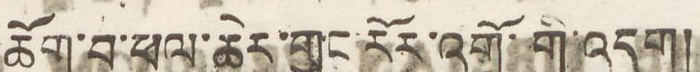ཆོག་བ་ཕལ་ཆེར་གྱང་རོར་འགྲོ་གི་འདུག།
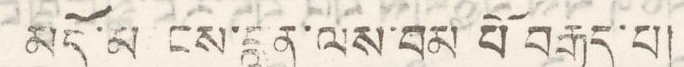མདོ་མ ངས་བླུན་ལ་བམ པོ བརྒྱད་པ།
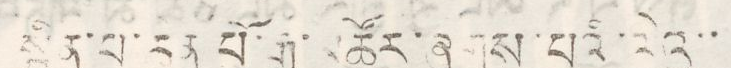སྦྱིན་པ་རན པོ་རྒྱ་མཚོར་ཞུགས་པའི་ལེའུ་་
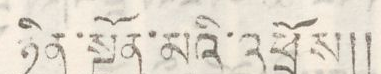ཉིན་སྔོན་མའི་འཕྲོས།།
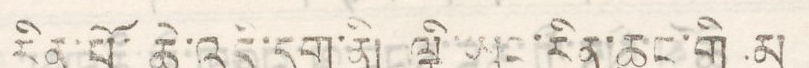རིན་པོ་ཆེ་འདི་དག་ནི། ལྕི་ཡང་རིན་ཆུང་གི མ
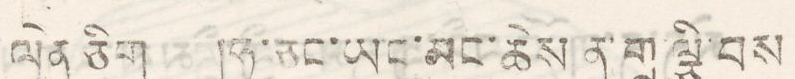ལེན ཅིག །ཧ་ཅང་ཡང་མང་ཆེས ན་གྲུ་ལྕི་བས
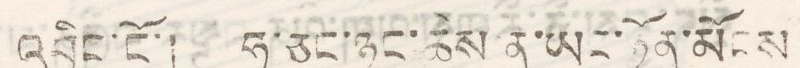འབྱིང་ངོ་། ཧ་ཅང་ཉུང་ཆེས་ན་ཡང་ཉོན་མོངས
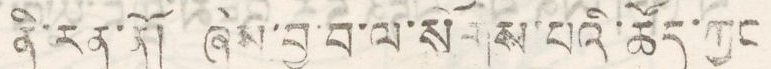ནི་རན་ནོ། ཆེས་བྱ་བ་ལ་སོགས་པའི་ཚོད་ཀྱང
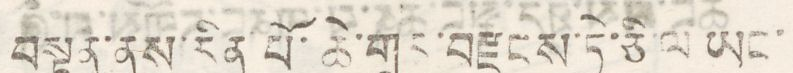བསྟན་ནས་རིན་པོ་ཆེ་གྲུང་བརྫངས་ཏེ་ཅི་ལ ཡང་
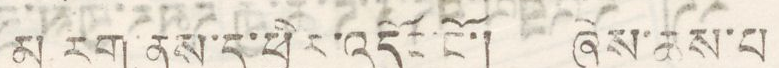མ རག ནས་ད་ཕྱིར་འདོང་ངོ་། ཞེས་ཆས་པ
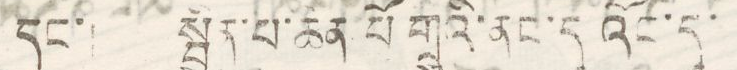དང་། སྦྱིན་པ་ཆན་པོ གྲུའི་ནང་དུ འོང་དུ་
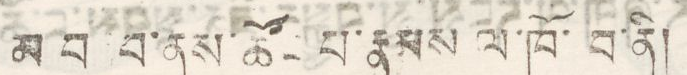མ བཏུབ་ནས་ཚོང་པ་རྣམས ལ་ཁོ་བ་ནི།
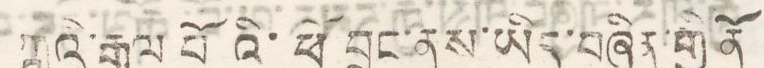ཀླུའི་རྒྱལ པོའི་ཕོ་བྲང་ནས་ཡིད་བཞིན་གྱི ནོ
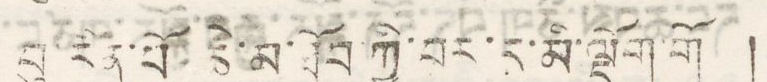བུ་རིན་པོ་ཆེ་མ་ཐོབ་ཀྱི་བར་དུ་མི་ལྡིག་གི །
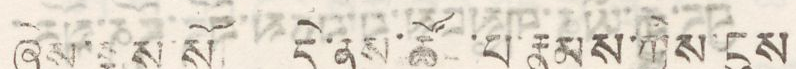ཞེས་སྨྲས་སོ། དེ་ནས་ཚོང་པ་རྣམས་ཀྱིས་ངུས་
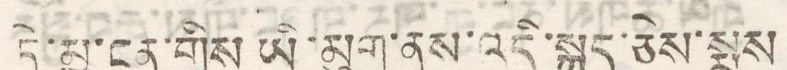དེ་མྱ་ངན་གྱིས ཡི་མུག་ནས་འདི་སྐད་ཅེས་སྨྲས
